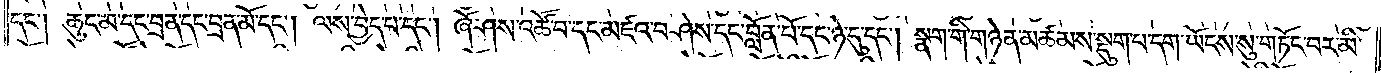དང༌། ཆུང་མ་དང་བྲན་དང་བྲན་མོ་དང༌། ལས་བྱེད་པ་དང༌། ཞོ་ཤས་འཚོ་བ་དང་མཛའ་བཤེས་དང་བློན་པོ་དང་ཉེ་དུ་དང༌། སྣག་གི་གཉེན་མཚམས་སྡུག་པ་དག་ཡོངས་སུ་གཏོང་བར་མི་
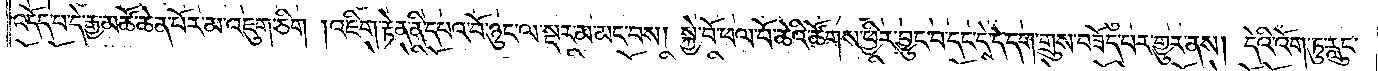འདོད་པ་དེ་རྒྱ་མཚོ་ཆེན་པོར་མ་འཇུག་ཅིག །འཇིག་རྟེན་ནི་དཔའ་བོ་ཉུང་ལ་སྔར་མ་མང་བས། སྐྱེ་བོ་ཕལ་པོ་ཆེའི་ཚོགས་ཕྱིར་བྱུང་བ་དང་དེ་དེ་དག་གྲུས་བཟོད་པར་གྱུར་ནས། དེའི་འོག་ཏུ་རླུང་
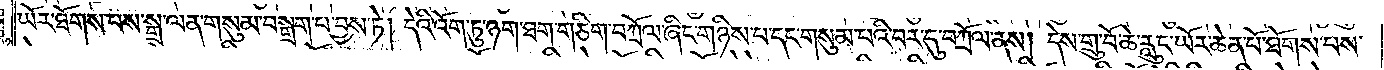ཡོར་ཐོགས་པས་སྒྲ་ལན་གསུམ་བསྒྲག་པ་བྱས་ཏེ། དེའི་འོག་ཏུ་ཉག་ཐག་གཅིག་བཀྲོལ་ཞིང་གཉིས་པ་དང་གསུམ་པའི་བར་དུ་བཀྲོལ་ནས། དེས་གྲུ་བོ་ཆེ་རླུང་ཡོར་ཆེན་པོ་ཐོགས་པས་
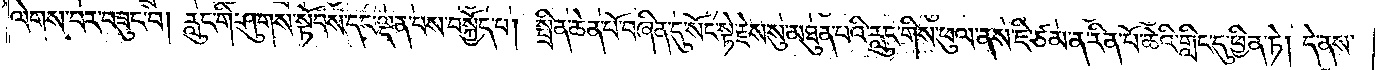ལེགས་པར་བཟུང་བ། རླུང་གི་ཤུགས་སྟོབས་དང་ལྡན་པས་བསྐྱོད་པ། སྤྲིན་ཆེན་པོ་བཞིན་དུ་སོང་སྟེ་རྗེས་སུ་མཐུན་པའི་རླུང་གི་ཕུལ་ནས་ཇི་ཙམ་ན་རིན་པོ་ཆེའི་གླིང་དུ་ཕྱིན་ཏེ། དེ་ནས་
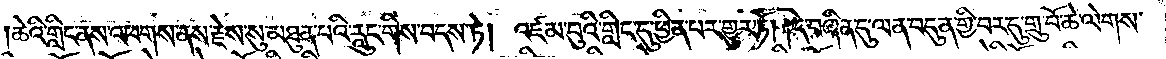ཆེའི་གླིང་ནས་འཕགས་ནས་རྗེས་སུ་མཐུན་པའི་རླུང་གིས་བདས་ཏེ། འཛམ་བུའི་གླིང་དུ་ཕྱིན་པར་གྱུར་ཏོ། །དེ་བཞིན་དུ་ལན་བདུན་གྱི་བར་དུ་གྲུ་བོ་ཆེ་ལེགས་
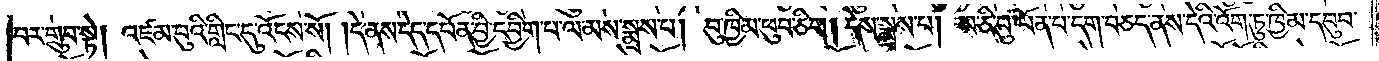པར་གྲུབ་སྟེ། འཛམ་བུའི་གླིང་དུ་འོངས་སོ། །དེ་ནས་དེད་དཔོན་བྱི་དབྱིག་པ་ལ་མས་སྨྲས་པ། བུ་ཁྱིམ་ཕུབ་ཅིག །དེས་སྨྲས་པ། མ་ཅི་བུ་ལོན་པ་དག་བཅད་ནས་དེའི་འོག་ཏུ་ཁྱིམ་དབུབ་
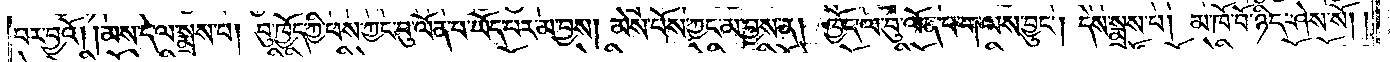པར་བྱའོ། །མས་དེ་ལ་སྨྲས་པ། བུ་ཁྱོད་ཀྱི་ཕས་ཀྱང་བུ་ལོན་པ་ཡོད་པར་མ་བྱས། མེས་བོས་ཀྱང་མ་བྱས་ན། ཁྱོད་ལ་བུ་ལོན་པ་ག་ལས་བྱུང༌། དེས་སྨྲས་པ། མ་ཁོ་བོ་ཉིད་ཤེས་སོ། །
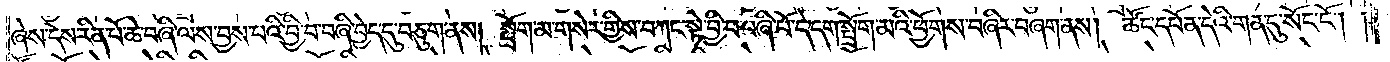ཞེས་དེས་རིན་པོ་ཆེ་བཞི་ལས་བྱས་པའི་བྱི་བ་བཞི་བྱེད་དུ་བཅུག་ནས། སྤྲོག་མ་གསེར་གྱིས་བཀང་སྟེ་བྱི་བ་བཞི་པོ་དེ་དག་སྤྲོག་མའི་ཕྱོགས་བཞིར་བཞག་ནས། ཚོང་དཔོན་དེའི་གན་དུ་སོང་ངོ༌། །
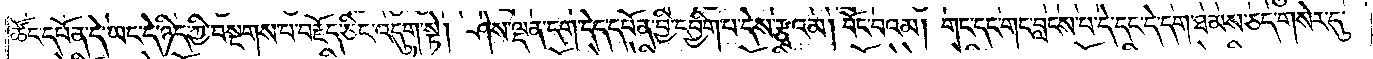ཚོང་དཔོན་དེ་ཡང་དེ་ཉིད་ཀྱི་བསྔགས་པ་བརྗོད་ཅིང་འདུག་སྟེ། ཤེས་ལྡན་དག་དེད་དཔོན་བྱི་དབྱིག་པ་དེས་རྩྭའམ། བོང་བའམ། གང་དང་གང་བླངས་པ་དེ་དང་དེ་དག་ཐམས་ཅད་གསེར་དུ་
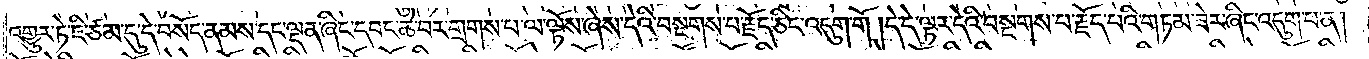འགྱུར་ཏེ་ཇི་ཙམ་དུ་དེ་བསོད་ནམས་དང་ལྡན་ཞིང་དབང་ཆེ་བར་གྲགས་པ་ལ་ལྟོས་ཞེས་དེའི་བསྔགས་བརྗོད་ཅིང་འདུག་གོ །དེ་དེ་ལྟར་དེའི་བསྔགས་པ་རྗོད་པའི་གཏམ་ཟེར་ཞིང་འདུག་པ་ན།
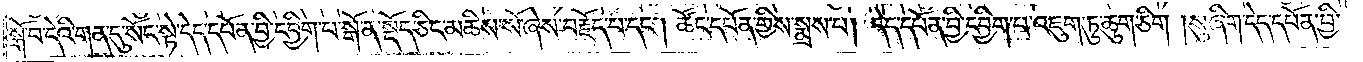སྒོ་བ་དེའི་གན་དུ་སོང་སྟེ་དེད་དཔོན་བྱི་དབྱིག་པ་སྒོ་ན་སྡོད་ཅིང་མཆིས་སོ་ཞེས་བརྗོད་པ་དང༌། ཚོང་དཔོན་གྱིས་སྨྲས་པ། དེད་དཔོན་བྱི་དབྱིག་པ་འཇུག་ཏུ་ཆུག་ཅིག །སུ་ཞིག་དེད་དཔོན་བྱི་
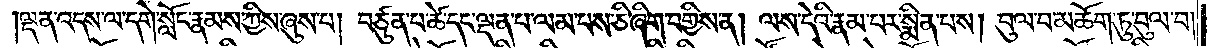ལྡན་འདས་ལ་དགེ་སློང་རྣམས་ཀྱིས་ཞུས་པ། བཙུན་པ་ཚེ་དང་ལྡན་པ་ལམ་པས་ཅི་ཞིག་བགྱིས་ན། ལས་དེའི་རྣམ་པར་སྨིན་པས། བུལ་བ་མཆོག་ཏུ་བུལ་བ།
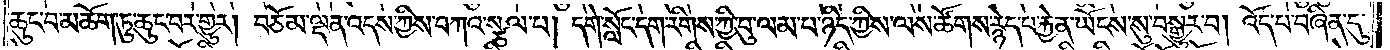ཆུང་བ་མཆོག་ཏུ་ཆུང་བར་གྱུར། བཅོམ་ལྡན་འདས་ཀྱིས་བཀའ་སྩལ་པ། དགེ་སློང་དག་རིགས་ཀྱི་བུ་ལམ་པ་ཉིད་ཀྱིས་ལས་ཚོགས་རྙེད་པ་རྐྱེན་ཡོངས་སུ་བསྒྱུར་བ། འོད་པ་བཞིན་དུ་
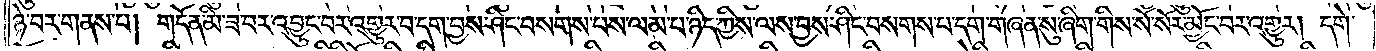ཉེ་བར་གནས་པ། གདོན་མི་ཟ་བར་འབྱུང་བར་འགྱུར་བ་དག་བྱས་ཤིང་བསགས་པས་ལམ་པ་ཉིད་ཀྱིས་ལས་བྱས་ཤིང་བསགས་པ་དག་གཞན་སུ་ཞིག་གིས་སོ་སོར་མྱོང་བར་འགྱུར། དགེ་
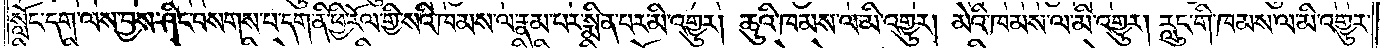སློང་དག་ལས་བྱས་ཤིང་བསགས་པ་དག་ནི་ཕྱི་རོལ་གྱི་སའི་ཁམས་ལ་རྣམ་པར་སྨིན་པར་མི་འགྱུར། ཆུའི་ཁམས་ལ་མི་འགྱུར། མེའི་ཁམས་ལ་མི་འགྱུར། རླུང་གི་ཁམས་ལ་མི་འགྱུར་
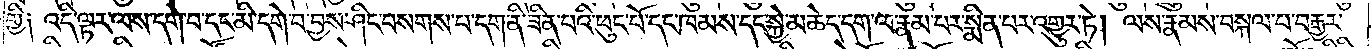གྱི༑ འདི་ལྟར་ལས་དགེ་བ་དང་མི་དགེ་བ་བྱས་ཤིང་བསགས་པ་དག་ནི་ཟིན་པའི་ཕུང་པོ་དང་ཁམས་དང་སྐྱེ་མཆེད་དག་ལ་རྣམ་པར་སྨིན་པར་འགྱུར་ཏེ། ལས་རྣམས་བསྐལ་པ་བརྒྱར་
